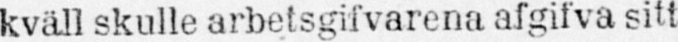kväll skulle arbetsgifvarena afgitva sitt
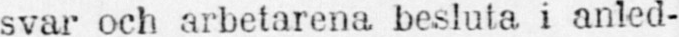svar och arbetarena besluta i anled-
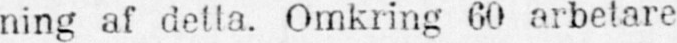ning af detta. Omkring 60 arbetare
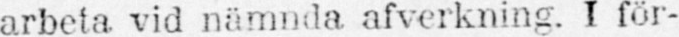arbeta vid nämnda afverkning. I för-
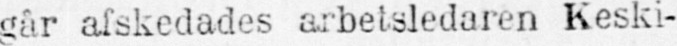går afskedades arbetsledaren Keski-
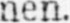nen.
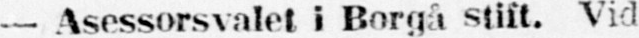— Asessorsvalet i Borgå stift. Vid
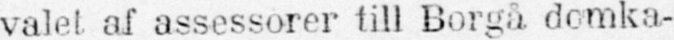valet af assessorer till Borgå domka-
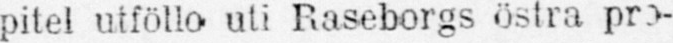pitel utföllo uti Raseborgs östra pro-
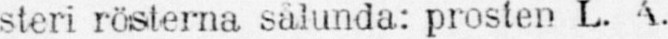steri rösterna sålunda: prosten L. A.
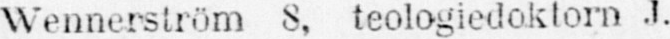Wennerström 8, teologiedoktorn J.
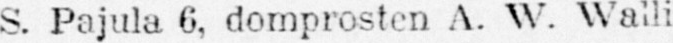S. Pajula 6, domprosten A. W. Walli
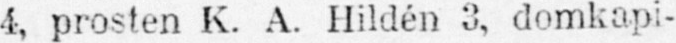4, prosten K. A. Hildén 3, domkapi-
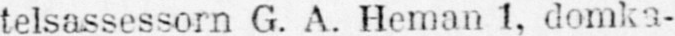telsassessorn G. A. Heman 1, domka-
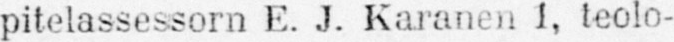pitelassessorn E. J. Karanen 1, teolo-
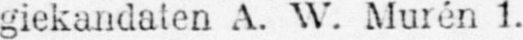giekandaten A. W. Murén 1.
